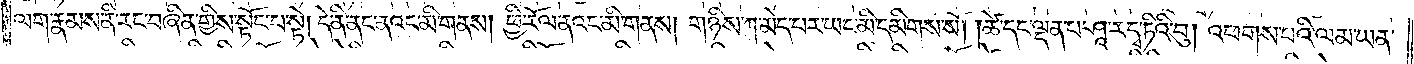ལག་རྣམས་ནི་རང་བཞིན་གྱིས་སྟོང་པ་སྟེ། དེ་ནི་ནང་ནའང་མི་གནས། ཕྱི་རོལ་ནའང་མི་གནས། གཉིས་ཀ་མེད་པར་ཡང་མི་དམིགས་སོ། །ཚེ་དང་ལྡན་པ་ཤཱ་ར་དྭ་ཏིའི་བུ། འཕགས་པའི་ལམ་ཡན་
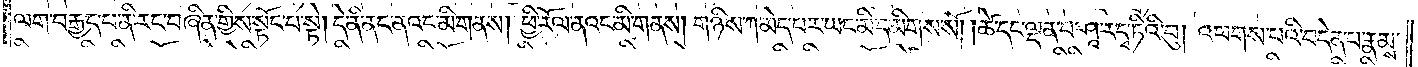ལག་བརྒྱད་པ་ནི་རང་བཞིན་གྱིས་སྟོང་པ་སྟེ། དེ་ནི་ནང་ནའང་མི་གནས། ཕྱི་རོལ་ནའང་མི་གནས། གཉིས་ཀ་མེད་པར་ཡང་མི་དམིགས་སོ། །ཚེ་དང་ལྡན་པ་ཤཱ་ར་དྭ་ཏིའི་བུ། འཕགས་པའི་བདེན་པ་རྣམས་
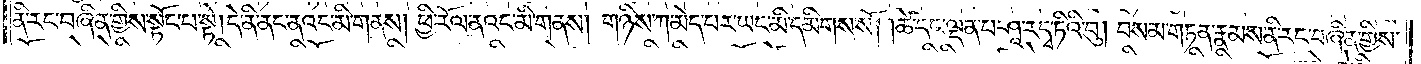ནི་རང་བཞིན་གྱིས་སྟོང་པ་སྟེ། དེ་ནི་ནང་ནའང་མི་གནས། ཕྱི་རོལ་ནའང་མི་གནས། གཉིས་ཀ་མེད་པར་ཡང་མི་དམིགས་སོ། །ཚེ་དང་ལྡན་པ་ཤཱ་ར་དྭ་ཏིའི་བུ། བསམ་གཏན་རྣམས་ནི་རང་བཞིན་གྱིས་
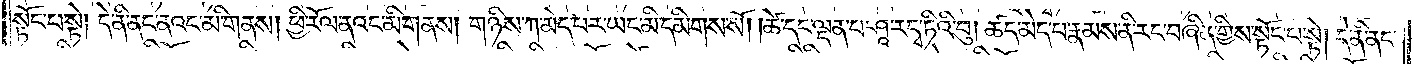སྟོང་པ་སྟེ། དེ་ནི་ནང་ནའང་མི་གནས། ཕྱི་རོལ་ནའང་མི་གནས། གཉིས་ཀ་མེད་པར་ཡང་མི་དམིགས་སོ། །ཚེ་དང་ལྡན་པ་ཤཱ་ར་དྭ་ཏིའི་བུ། ཚད་མེད་པ་རྣམས་ནི་རང་བཞིན་གྱིས་སྟོང་པ་སྟེ། དེ་ནི་ནང་
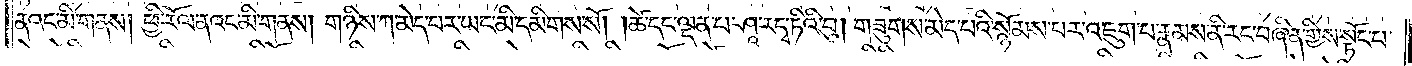ནའང་མི་གནས། ཕྱི་རོལ་ནའང་མི་གནས། གཉིས་ཀ་མེད་པར་ཡང་མི་དམིགས་སོ། །ཚེ་དང་ལྡན་པ་ཤཱ་ར་དྭ་ཏིའི་བུ། གཟུགས་མེད་པའི་སྙོམས་པར་འཇུག་པ་རྣམས་ནི་རང་བཞིན་གྱིས་སྟོང་པ་
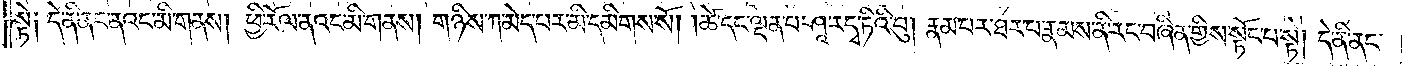སྟེ༏ དེ་ནི་ནང་ནའང་མི་གནས། ཕྱི་རོལ་ནའང་མི་གནས། གཉིས་ཀ་མེད་པར་ཡང་མི་དམིགས་སོ། །ཚེ་དང་ལྡན་པ་ཤཱ་ར་དྭ་ཏིའི་བུ། རྣམ་པར་ཐར་པ་རྣམས་ནི་རང་བཞིན་གྱིས་སྟོང་པ་སྟེ། དེ་ནི་ནང་
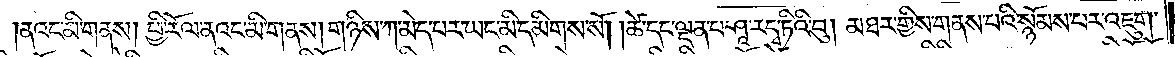ནའང་མི་གནས། ཕྱི་རོལ་ནའང་མི་གནས། གཉིས་ཀ་མེད་པར་ཡང་མི་དམིགས་སོ། །ཚེ་དང་ལྡན་པ་ཤཱ་ར་དྭ་ཏིའི་བུ། མཐར་གྱིས་གནས་པའི་སྙོམས་པར་འཇུག་
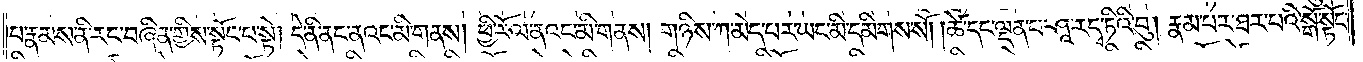པ་རྣམས་ནི་རང་བཞིན་གྱིས་སྟོང་པ་སྟེ། དེ་ནི་ནང་ནའང་མི་གནས། ཕྱི་རོལ་ནའང་མི་གནས། གཉིས་ཀ་མེད་པར་ཡང་མི་དམིགས་སོ། །ཚེ་དང་ལྡན་པ་ཤཱ་ར་དྭ་ཏིའི་བུ། རྣམ་པར་ཐར་པའི་སྒོ་སྟོང་
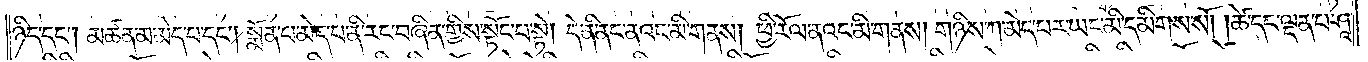པ་ཉིད་དང༌། མཚན་མ་མེད་པ་དང༌། སྨོན་པ་མེད་པ་ནི་རང་བཞིན་གྱིས་སྟོང་པ་སྟེ། དེ་ནི་ནང་ནའང་མི་གནས། ཕྱི་རོལ་ནའང་མི་གནས། གཉིས་ཀ་མེད་པར་ཡང་མི་དམིགས་སོ། །ཚེ་དང་ལྡན་པ་ཤཱ་
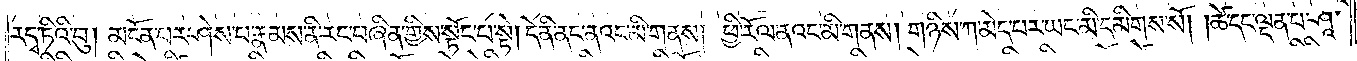ར་དྭ་ཏིའི་བུ། མངོན་པར་ཤེས་པ་རྣམས་ནི་རང་བཞིན་གྱིས་སྟོང་པ་སྟེ། དེ་ནི་ནང་ནའང་མི་གནས། ཕྱི་རོལ་ནའང་མི་གནས། གཉིས་ཀ་མེད་པར་ཡང་མི་དམིགས་སོ། །ཚེ་དང་ལྡན་པ་ཤཱ་
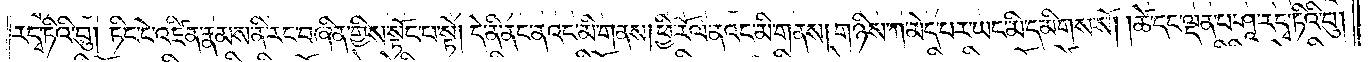ར་དྭ་ཏིའི་བུ། ཏིང་ངེ་འཛིན་རྣམས་ནི་རང་བཞིན་གྱིས་སྟོང་པ་སྟེ། དེ་ནི་ནང་ནའང་མི་གནས། ཕྱི་རོལ་ནའང་མི་གནས། གཉིས་ཀ་མེད་པར་ཡང་མི་དམིགས་སོ། །ཚེ་དང་ལྡན་པ་ཤཱ་ར་དྭ་ཏིའི་བུ།
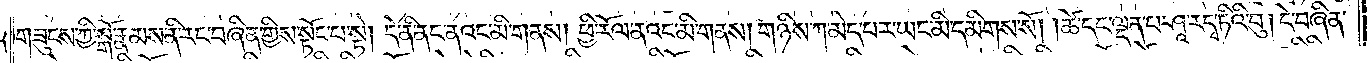གཟུངས་ཀྱི་སྒོ་རྣམས་ནི་རང་བཞིན་གྱིས་སྟོང་པ་སྟེ། དེ་ནི་ནང་ནའང་མི་གནས། ཕྱི་རོལ་ནའང་མི་གནས། གཉིས་ཀ་མེད་པར་ཡང་མི་དམིགས་སོ། །ཚེ་དང་ལྡན་པ་ཤཱ་ར་དྭ་ཏིའི་བུ། དེ་བཞིན་
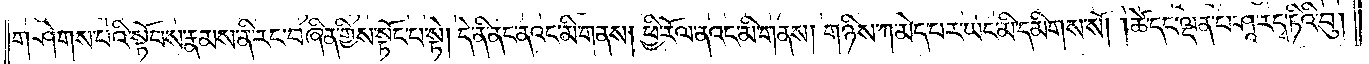གཤེགས་པའི་སྟོབས་རྣམས་ནི་རང་བཞིན་གྱིས་སྟོང་པ་སྟེ། དེ་ནི་ནང་ནའང་མི་གནས། ཕྱི་རོལ་ནའང་མི་གནས། གཉིས་ཀ་མེད་པར་ཡང་མི་དམིགས་སོ། །ཚེ་དང་ལྡན་པ་ཤཱ་ར་དྭ་ཏིའི་བུ།
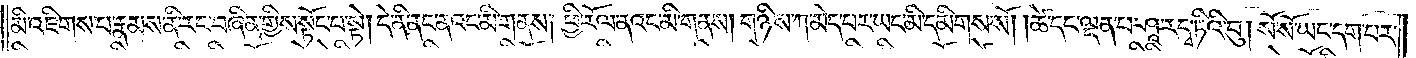མི་འཇིགས་པ་རྣམས་ནི་རང་བཞིན་གྱིས་སྟོང་པ་སྟེ། དེ་ནི་ནང་ནའང་མི་གནས་ཕྱི་རོལ་ནའང་མི་གནས་གཉིས་ཀ་མེད་པར་ཡང་མི་དམིགས་སོ། །ཚེ་དང་ལྡན་པ་ཤཱ་ར་དྭ་ཏིའི་བུ། སོ་སོ་ཡང་དག་པར་
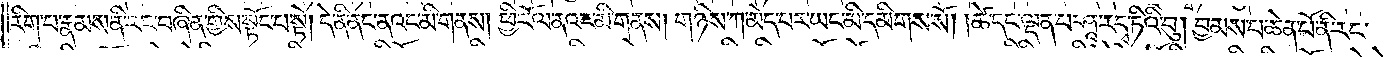རིག་པ་རྣམས་ནི་རང་བཞིན་གྱིས་སྟོང་པ་སྟེ། དེ་ནི་ནང་ནའང་མི་གནས། ཕྱི་རོལ་ནའང་མི་གནས། གཉིས་ཀ་མེད་པར་ཡང་མི་དམིགས་སོ། །ཚེ་དང་ལྡན་པ་ཤཱ་ར་དྭ་ཏིའི་བུ། བྱམས་པ་ཆེན་པོ་ནི་རང་
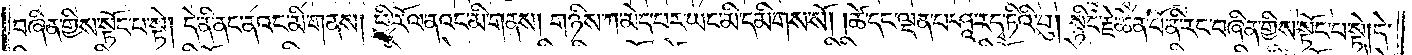བཞིན་གྱིས་སྟོང་པ་སྟེ། དེ་ནི་ནང་ནའང་མི་གནས། ཕྱི་རོལ་ནའང་མི་གནས། གཉིས་ཀ་མེད་པར་ཡང་མི་དམིགས་སོ། །ཚེ་དང་ལྡན་པ་ཤཱ་ར་དྭ་ཏིའི་བུ། སྙིང་རྗེ་ཆེན་པོ་ནི་རང་བཞིན་གྱིས་སྟོང་པ་སྟེ། དེ་
